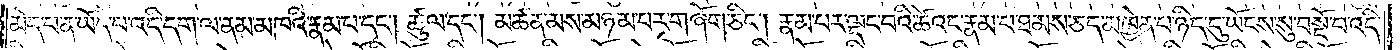མེད་པ་ན་ཡོད་པ་འདི་དག་ལ་ནམ་མཁའི་རྣམ་པ་དང༌། ཚུལ་དང༌། མཚན་མས་མཉམ་པར་གཞོག་ཅིང༌། རྣམ་པར་ལྡང་བའི་ཚེའང་རྣམ་པ་ཐམས་ཅད་མཁྱེན་པ་ཉིད་དུ་ཡོངས་སུ་བསྔོ་བ་འདི་
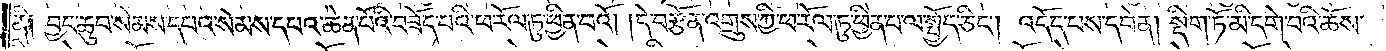ནི༑ བྱང་ཆུབ་སེམས་དཔའ་སེམས་དཔའ་ཆེན་པོའི་བཟོད་པའི་ཕ་རོལ་ཏུ་ཕྱིན་པའོ། །དེ་བརྩོན་འགྲུས་ཀྱི་ཕ་རོལ་ཏུ་ཕྱིན་པ་ལ་སྤྱོད་ཅིང༌། འདོད་པས་དབེན། སྡིག་ཏོ་མི་དགེ་བའི་ཆོས་
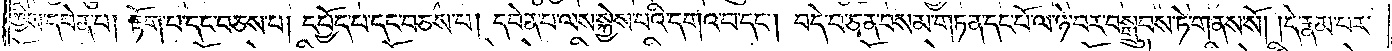ཀྱིས་དབེན་པ། རྟོག་པ་དང་བཅས་པ། དཔྱོད་པ་དང་བཅས་པ། དབེན་པ་ལས་སྐྱེས་པའི་དགའ་བ་དང༌། བདེ་བ་ཅན་བསམ་གཏན་དང་པོ་ལ་ཉེ་བར་བསྒྲུབས་ཏེ་གནས་སོ། །དེ་རྣམ་པར་
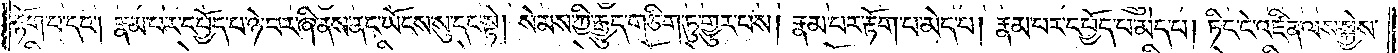རྟོག་པ་དང༌། རྣམ་པར་དཔྱོད་པ་ཉེ་བར་ཞི་ནས་ནང་ཡོངས་སུ་དང་སྟེ། སེམས་ཀྱི་རྒྱུད་གཅིག་ཏུ་གྱུར་པས། རྣམ་པར་རྟོག་པ་མེད་པ། རྣམ་པར་དཔྱོད་པ་མེད་པ། ཏིང་ངེ་འཛིན་ལས་སྐྱེས་
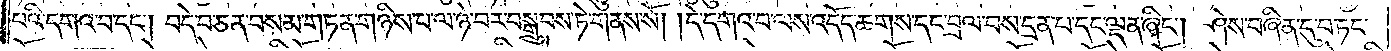པའི་དགའ་བ་དང༌། བདེ་བ་ཅན་བསམ་གཏན་གཉིས་པ་ལ་ཉེ་བར་བསྒྲུབས་ཏེ་གནས་སོ། །དེ་དགའ་བ་ལས་འདོད་ཆགས་དང་བྲལ་བས་དྲན་པ་དང་ལྡན་ཞིང༌། ཤེས་བཞིན་དུ་བཏང་
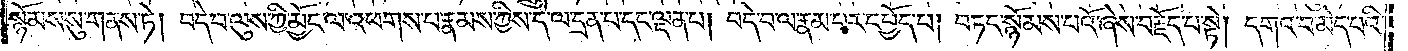སྙོམས་སུ་གནས་ཏེ། བདེ་བ་ལུས་ཀྱི་མྱོང་ལ་འཕགས་པ་རྣམས་ཀྱིས་དེ་ལ་དྲན་པ་དང་ལྡན་པ། བདེ་བ་ལ་རྣམ་པར་དཔྱོད་པ། བཏང་སྙོམས་པའོ་ཞེས་བརྗོད་པ་སྟེ། དགའ་བ་མེད་པའི་
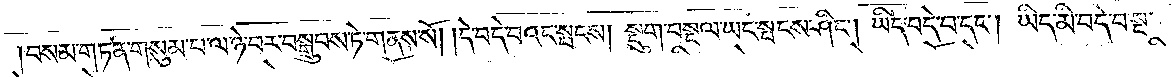བསམ་གཏན་གསུམ་པ་ལ་ཉེ་བར་བསྒྲུབས་ཏེ་གནས་སོ། །དེ་བདེ་བའང་སྤངས། སྡུག་བསྔལ་ཡང་སྤངས་ཤིང༌། ཡིད་བདེ་བ་དང༌། ཡིད་མི་བདེ་བ་སྔ་
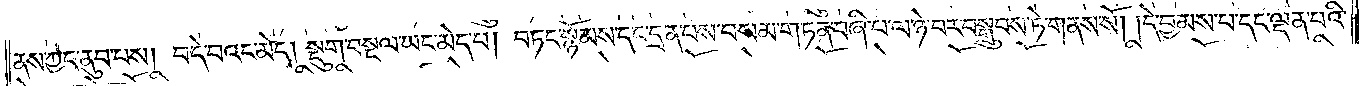ནས་ཀྱང་ནུབ་པས། བདེ་བའང་མེད། སྡུག་བསྔལ་ཡང་མེད་པ། བཏང་སྙོམས་དང་དྲན་པས་བསམ་གཏན་བཞི་པ་ལ་ཉེ་བར་བསྒྲུབས་ཏེ་གནས་སོ། །དེ་བྱམས་པ་དང་ལྡན་པའི་
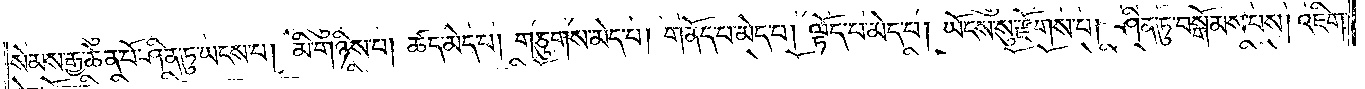སེམས་རྒྱ་ཆེན་པོ་ཤིན་ཏུ་ཡངས་པ། མི་གཉིས་པ། ཚད་མེད་པ། གཅུགས་མེད་པ། གནོད་པ་མེད་པ། ལྟོད་པ་མེད་པ། ཡོངས་སུ་རྫོགས་པ། ཤིན་ཏུ་བསྒོམས་པས། །འཇིག་
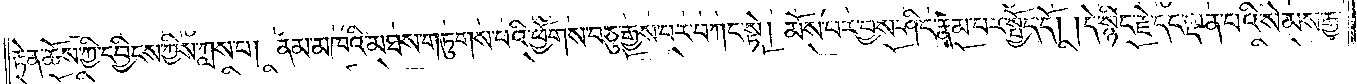རྟེན་ཆོས་ཀྱི་དབྱིངས་ཀྱིས་ཀླས་པ། ནམ་མཁའི་མཐས་གཏུགས་པའི་ཕྱོགས་བཅུ་རྒྱས་པར་བཀང་སྟེ། མོས་པར་བྱས་ཤིང་རྣམ་པར་སྤྱོད་དོ། །དེ་སྙིང་རྗེ་དང་ལྡན་པའི་སེམས་རྒྱ་
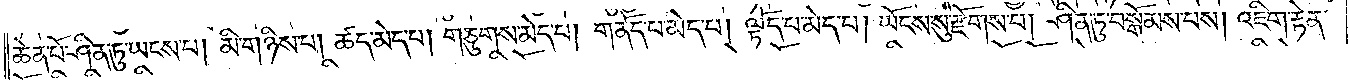ཆེན་པོ་ཤིན་ཏུ་ཡངས་པ། མི་གཉིས་པ། ཚད་མེད་པ། གཅུགས་མེད་པ། གནོད་པ་མེད་པ། ལྟོད་པ་མེད་པ། ཡོངས་སུ་རྫོགས་པ། ཤིན་ཏུ་བསྒོམས་པས། འཇིག་རྟེན་
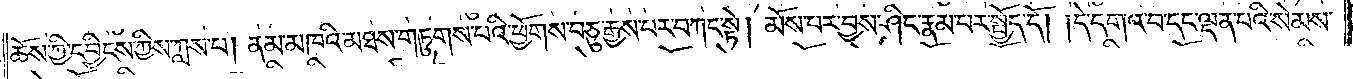ཆོས་ཀྱི་དབྱིངས་ཀྱིས་ཀླས་པ། ནམ་མཁའི་མཐས་གཏུགས་པའི་ཕྱོགས་བཅུ་རྒྱས་པར་བཀང་སྟེ། མོས་པར་བྱས་ཤིང་རྣམ་པར་སྤྱོད་དོ། །དེ་དགའ་བ་དང་ལྡན་པའི་སེམས་
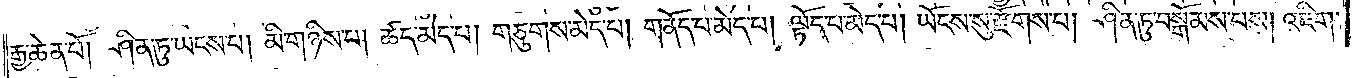རྒྱ་ཆེན་པོ། ཤིན་ཏུ་ཡངས་པ། མི་གཉིས་པ། ཚད་མེད་པ། གཅུགས་མེད་པ། གནོད་པ་མེད་པ། ལྟོད་པ་མེད་པ། ཡོངས་སུ་རྫོགས་པ། ཤིན་ཏུ་བསྒོམས་པས། འཇིག་
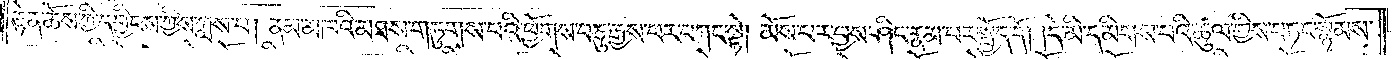རྟེན་ཆོས་ཀྱི་དབྱིངས་ཀྱིས་ཀླས་པ། ནམ་མཁའི་མཐས་གཏུགས་པའི་ཕྱོགས་བཅུ་རྒྱས་པར་བཀང་སྟེ། མོས་པར་བྱས་ཤིང་རྣམ་པར་སྤྱོད་དོ། །དེ་མི་དམིགས་པའི་ཚུལ་གྱིས་བཏང་སྙོམས་
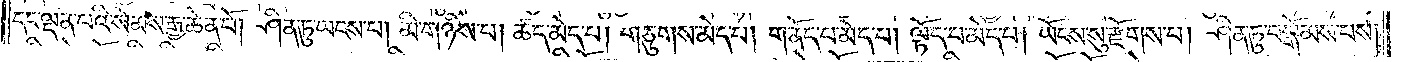དང་ལྡན་པའི་སེམས་རྒྱ་ཆེན་པོ། ཤིན་ཏུ་ཡངས་པ། མི་གཉིས་པ། ཚད་མེད་པ། གཅུགས་མེད་པ། གནོད་པ་མེད་པ། ལྟོད་པ་མེད་པ། ཡོངས་སུ་རྫོགས་པ། ཤིན་ཏུ་བསྒོམས་པས།
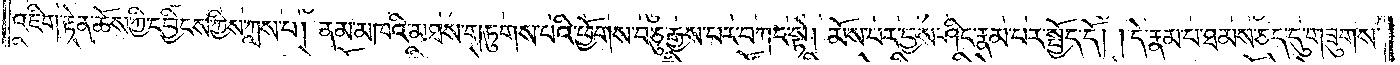འཇིག་རྟེན་ཆོས་ཀྱི་དབྱིངས་ཀྱིས་ཀླས་པ། ནམ་མཁའི་མཐས་གཏུགས་པའི་ཕྱོགས་བཅུ་རྒྱས་པར་བཀང་སྟེ། མོས་པར་བྱས་ཤིང་རྣམ་པར་སྤྱོད་དོ། །དེ་རྣམ་པ་ཐམས་ཅད་དུ་གཟུགས་
